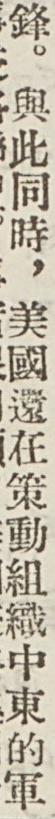鋒。與此同時，美國還在策動組織中東的軍
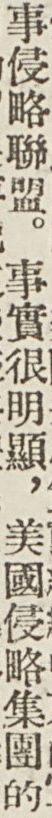事侵略聯盟。事實很明顯，美國侵略集團的
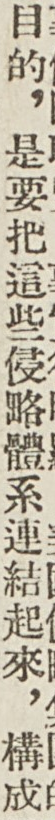目的，是要把這些侵略體系連結起來，構成
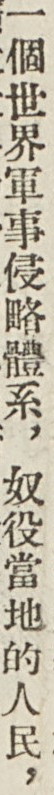一個世界軍事侵略體系，奴役當地的人民，
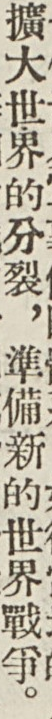擴大世界的分裂，準備新的世界戰爭。
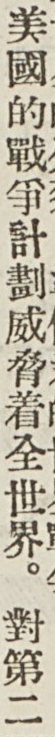美國的戰爭計劃威脅着全世界。對第二
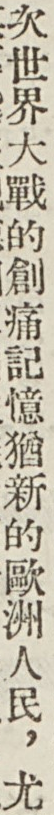次世界大戰的創痛記憶猶新的歐洲人民，尤
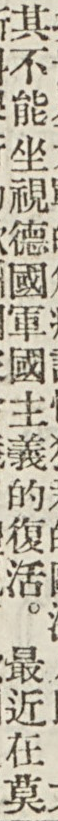其不能坐視德國軍國主義的復活。最近在莫
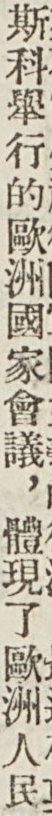斯科舉行的歐洲國家會議，體現了歐洲人民
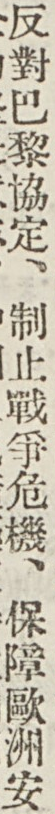反對巴黎協定、制止戰爭危機、保障歐洲安
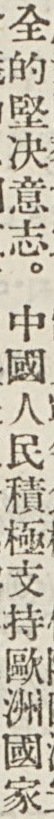全的堅決意志。中國人民積極支持歐洲國家
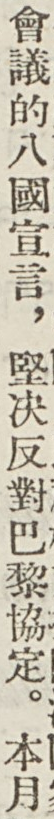會議的八國宣言，堅決反對巴黎協定。本月
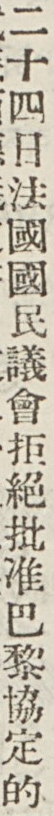二十四日法國國民議會拒絕批准巴黎協定的
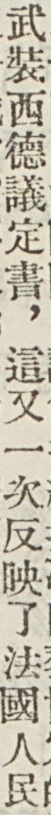武裝西德議定書，這又一次反映了法國人民
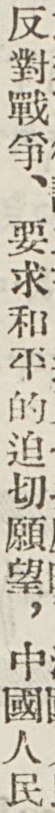反對戰爭、要求和平的迫切願望，中國人民
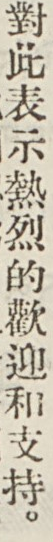對此表示熱烈地歡迎和支持。
